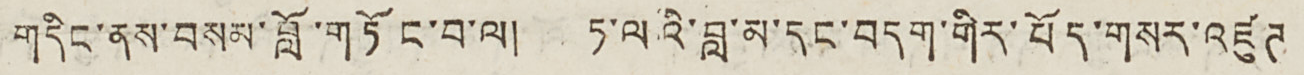གདིང་ནས་བསམ་བློ་གཏོང་བ་ལ། ཏ་ལའི་བླ་མ་དང་བདག་གིར་བོད་གསར་འཛུཊ
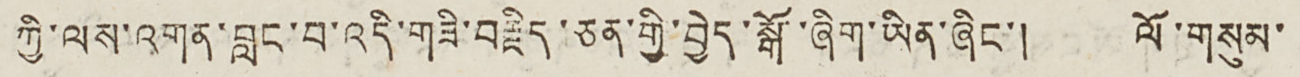ཀྱི་ལས་འགན་བླང་བ་འདི་གཟི་བརྗིད་ཅན་གྱི་བྱེད་སྒོ་ཞིག་ཡིན་ཞིང་། ལོ་གསུམ་
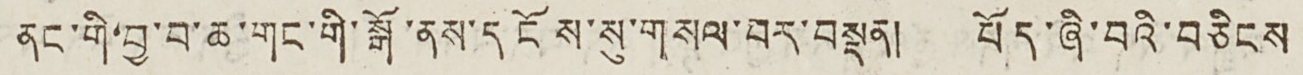ནང་གི་བྱ་བ་ཆ་གང་གི་སྒོ་ནས་དངོས་སུ་གསལ་བར་བསྡན། བོད་ཞི་བའི་བཅིངས
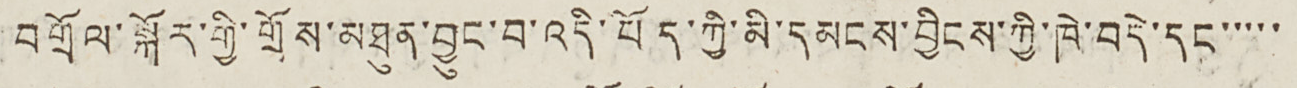བགྲོལ་སྐོར་གྱི་གྲོས་མཐུན་བྱུང་བ་འདི་བོད་ཀྱི་མི་དམངས་བྱིངས་ཀྱི་ཁེ་བདེ་དང་་་་་་
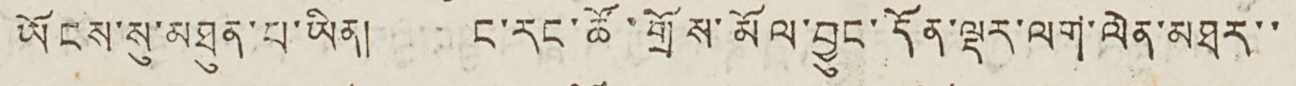ཡོངས་སུ་མཐུན་པ་ཡིན། ང་རང་ཚོ་གྲོས་མོལ་བྱང་དོན་ལྡར་ལག་ལེན་མཐར་་
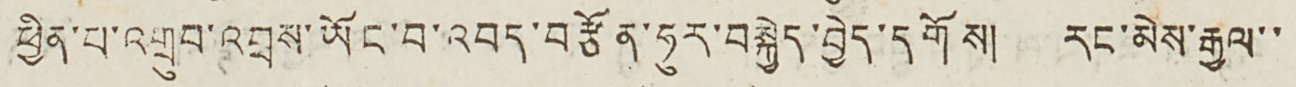ཕྱིན་པ་འགྲུབ་འབྲས་ཡོང་བ་འབད་བརྩོན་ཧུར་བསྐྱེད་བྱེད་དགོས། རང་མེས་རྒྱལ་་
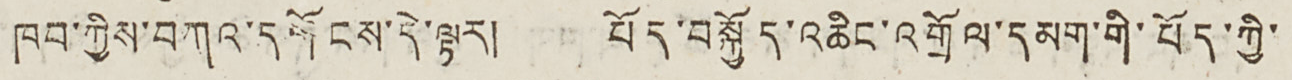ཁབ་ཀྱིས་བཀའ་དགོངས་དེ་ལྟར། བོད་བསྐྱོད་འཆིང་འགྲོལ་དམག་གི་བོད་ཀྱི་
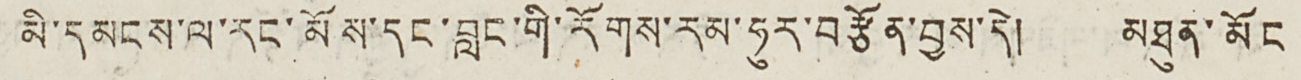མི་དམངས་ལ་རང་མོས་དང་བླང་གི་རོགས་རམ་ཧུར་བརྩོན་བྱས་དེ། མཐུན་མོང
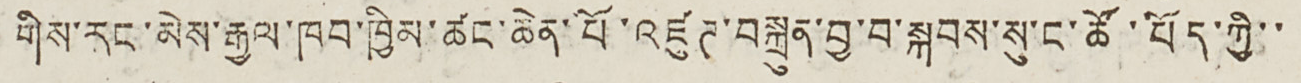གིས་རང་མེས་རྒྱལ་ཁབ་ཁྱིམ་ཚང་ཆེན་པོ་འཛུཊ་བསྐྲུན་བྱ་བ་སྐབས་སུ་ང་ཚོ་བོད་ཀྱི་་
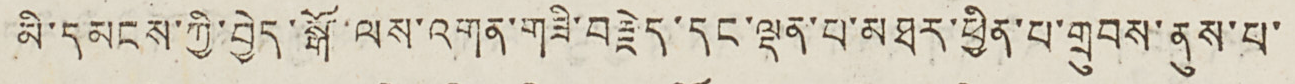མི་དམངས་ཀྱི་བྱེད་སྒོ་ལས་འགན་གཟི་བརྗེད་དང་ལྡན་པ་མཐར་ཕྱིན་པ་གྲུབས་ནུས་པ་
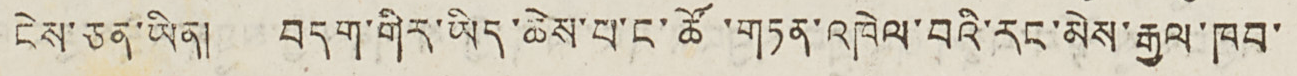ངེས་ཅན་ཡིན། བདག་གིར་ཡིད་ཆེས་པ་ང་ཚོ ་གཏན་འཁེལ་བའི་རང་མེས་རྒྱལ་ཁབ་
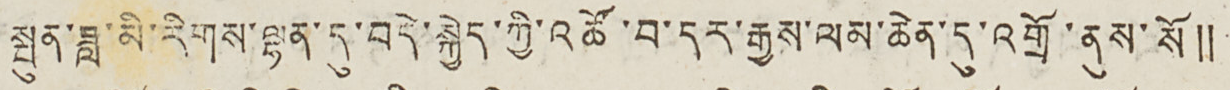སྤུན་ཟླ་མི་རིགས་ལྷན་དུ་བདེ་སྐྱེད་ཀྱི་འཚོ་བ་དར་རྒྱས་ལམ་ཆེན་དུ་འགྲོ་ནུས་སོ༎
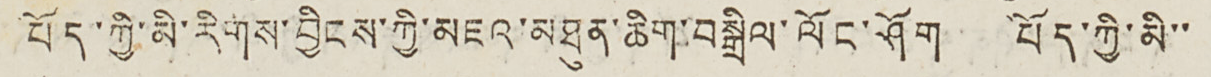བོད་ཀྱི་མི་རིགས་བྱིངས་ཀྱི་མཇའ་མཐུན་ཆིག་བསྒྲིལ་ལོང་ཤོག བོད་ཀྱི་མི་་
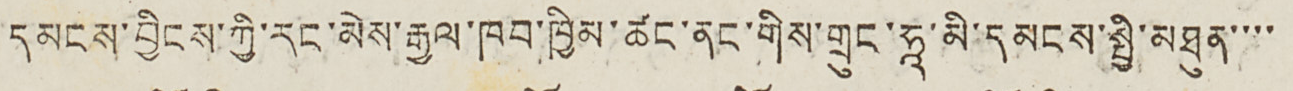དམངས་བྱིངས་ཀྱི་རང་མེས་རྒྱལ་ཁབ་ཁྱིམ་ཚང་ནང་གིས་གྲུང་ཧཱ་མི་དམངས་སྤྱི་མཐུན་་་་
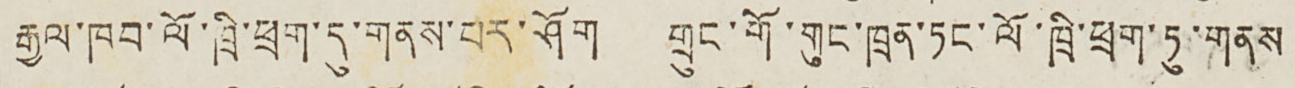རྒྱལ་ཁབ་ལོ་ཁྲི་ཕྲག་དུ་གནས་པར་ཤོག གྲུང་གོ་གུང་ཁྲན་ཏང་ལོ་ཁྲི་ཕྲག་ཏུ་གནས
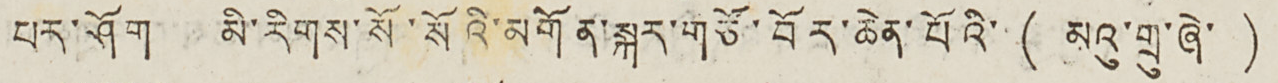པར་ཤོག མི་རིགས་སོ་སོའི་མགོན་སྐར་གཙོ་བོར་ཆེན་པོའི་ ( མའུ་གྲུ་ཞེ་ )
